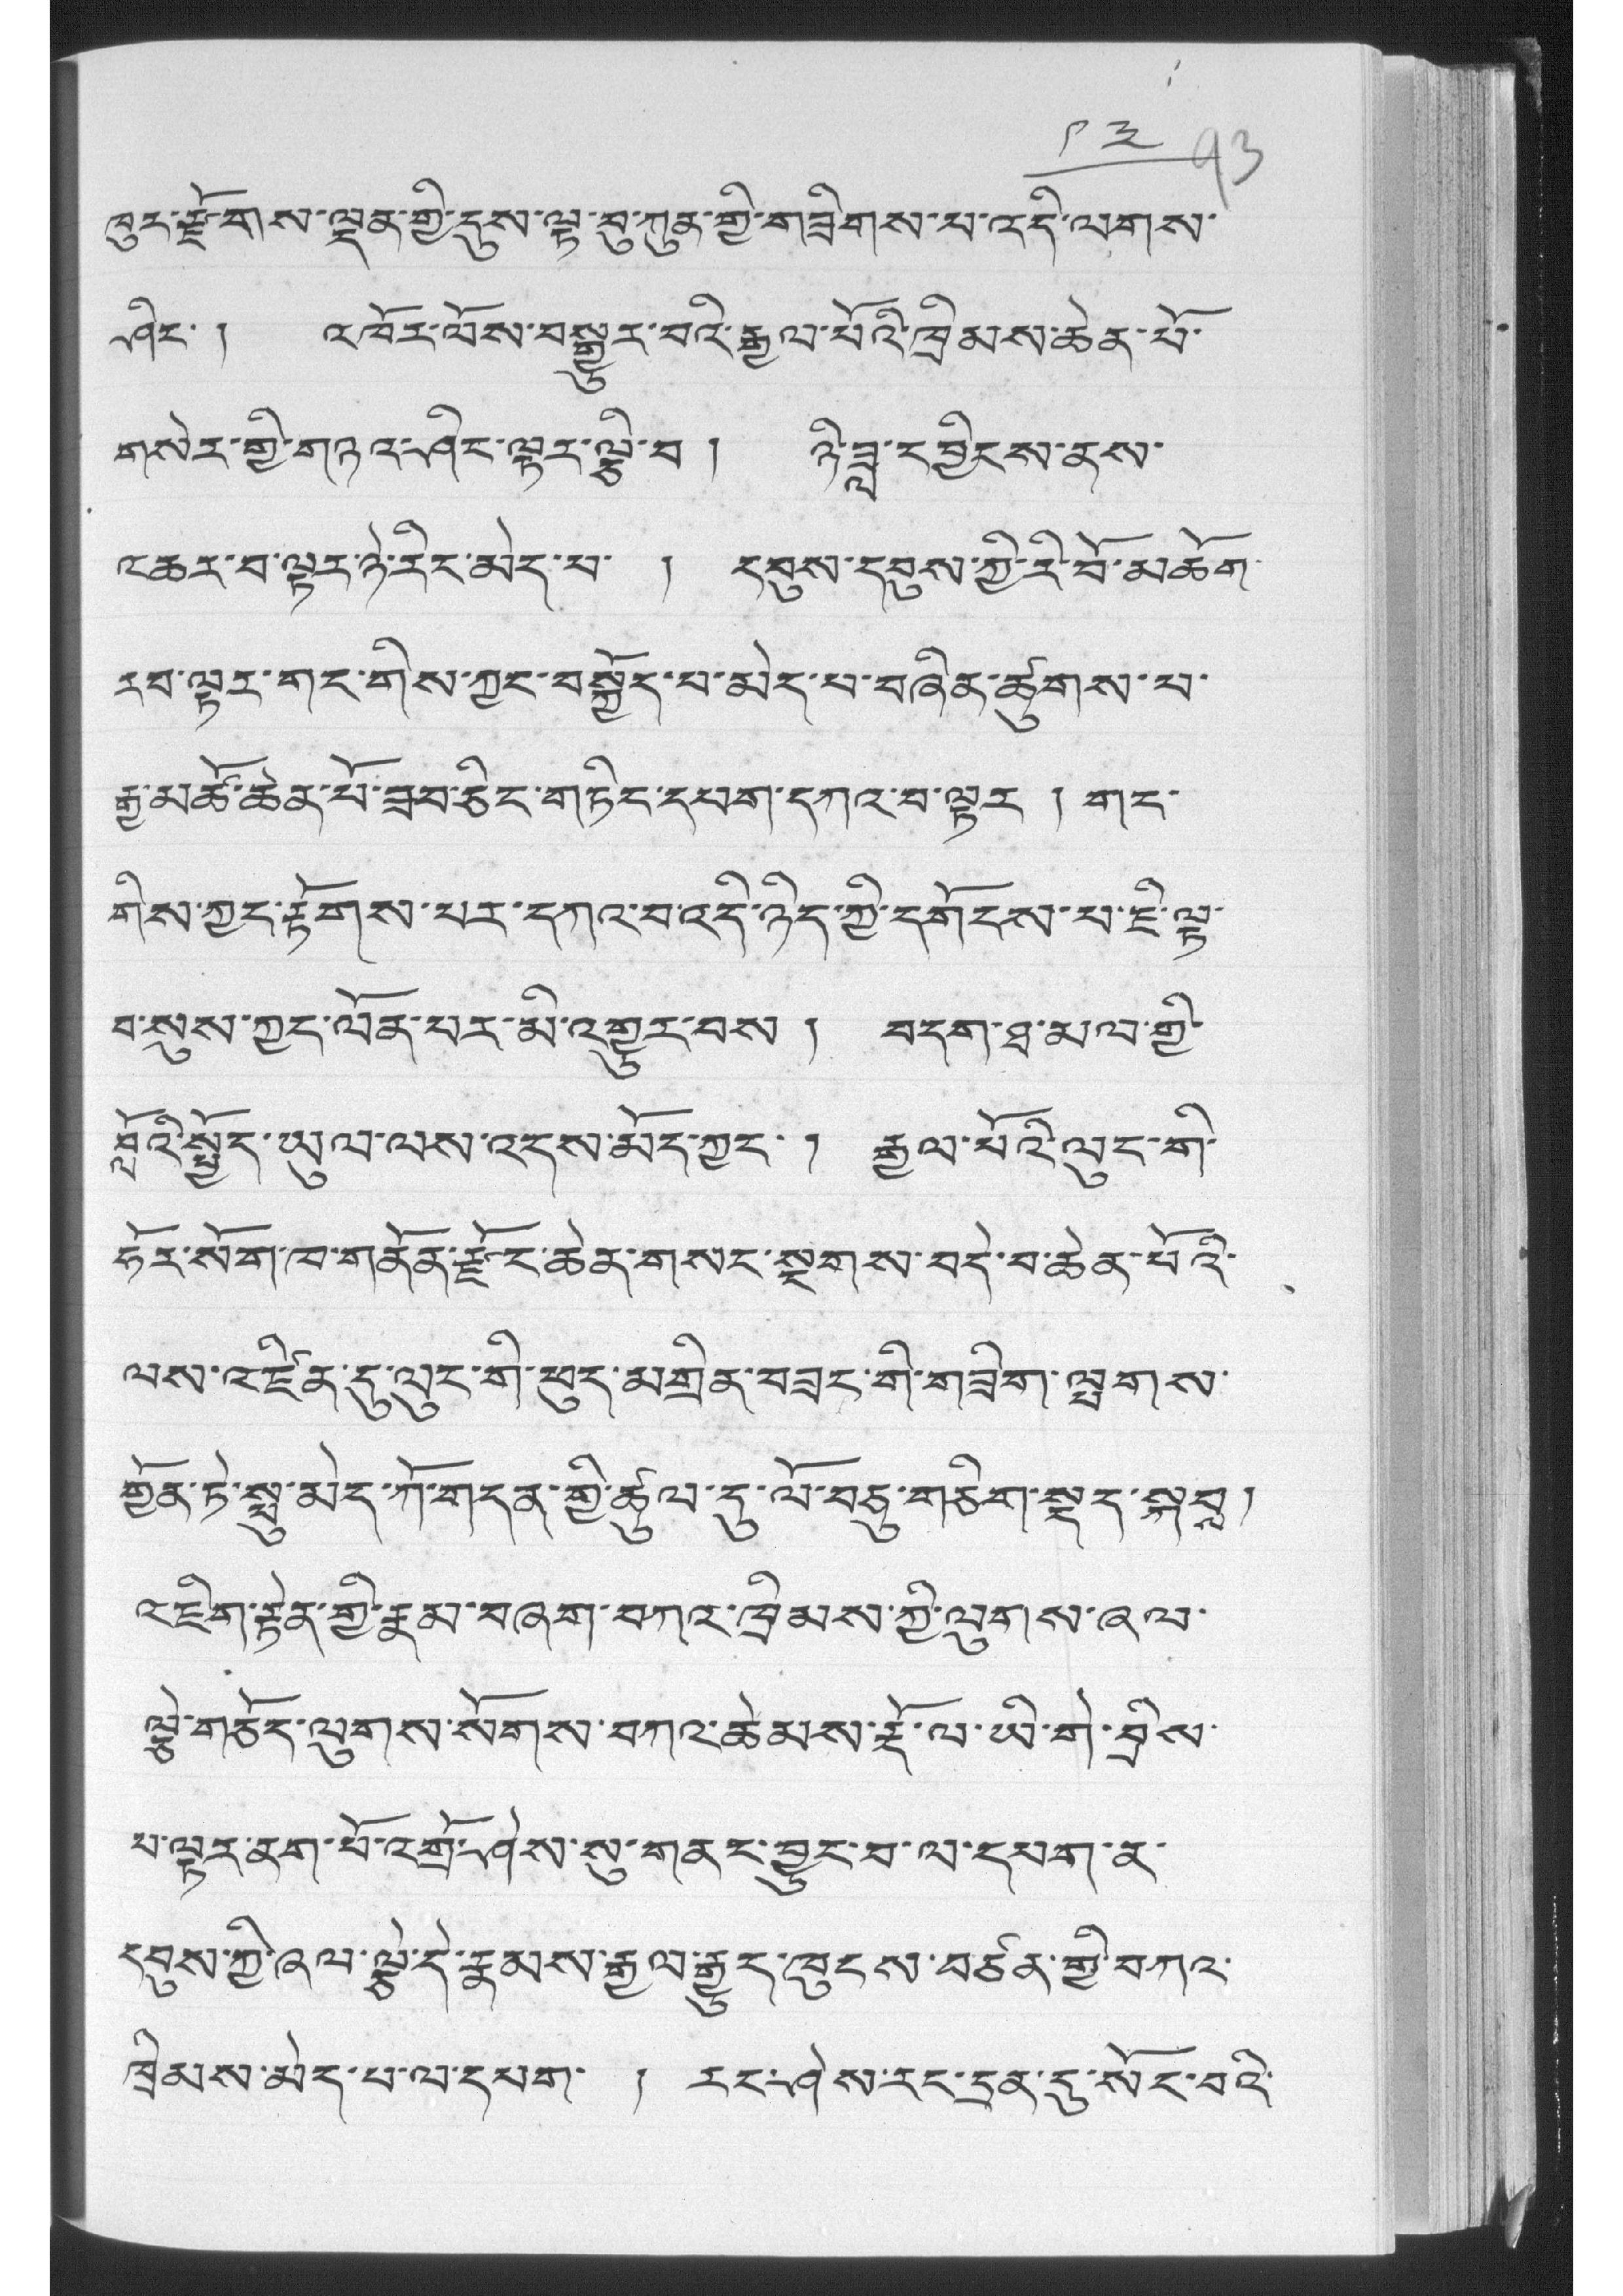༩༣
ཁུར་རྫོགས་ལྡན་གྱི་དུས་ལྟ་བུ་ཀུན་གྱི་གཟིགས་པ་འདི་ལགས་
ཤིང་ ། འཁོར་ལོས་བསྒྱུར་བའི་རྒྱལ་པོའི་ཁྲིམས་ཆེན་པོ་
གསེར་གྱི་གཉའ་ཤིང་ལྟར་ལྕི་བ ། ཉི་ཟླ་དབྱིངས་ནས་
འཆར་བ་ལྟར་ཉེ་རིང་མེད་པ་ ། དབུས་དབུས་ཀྱི་རི་བོ་མཆོག་
རབ་ལྟར་གང་གིས་ཀྱང་བསྐྱོད་པ་མེད་པ་བཞིན་ཚུགས་པ་
རྒྱ་མཚོ་ཆེན་པོ་ཟབ་ཅིང་གཏིང་དཔག་དཀའ་བ་ལྟར་། གང་
གིས་ཀྱང་རྟོགས་པར་དཀའ་བ་འདི་ཉིད་ཀྱི་དགོངས་པ་ཇི་ལྟ་
བ་སུས་ཀྱང་ལོན་པར་མི་འགྱུར་བས ། བདག་ཐ་མལ་གྱི་
བློའི་སྤྱོད་ཡུལ་ལས་འདས་མོད་ཀྱང་ ། རྒྱལ་པོའི་ལུང་ག་
ཧོར་སོག་ཁ་གནོན་རྫོང་ཆེན་གསར་སྔགས་བདེ་བ་ཆེན་པོའི་
ལས་འཛིན་དུ་ལུང་གི་ཕུད་མགྲིན་བཟང་གི་གཟིག་ལྤགས་
གྱོན་ཏེ་སྤུ་མེད་ཀོ་གདན་གྱི་ཚུལ་དུ་ལོ་བཅུ་གཅིག་སྡད་སྐབས།
འཇིག་རྟེན་གྱི་རྣམ་བཞག་བཀའ་ཁྲིམས་ཀྱི་འུགས་ཞལ་
ལྕེ་གཅོད་ལུགས་སོགས་བཀའ་ཆེམས་རྡོ་ལ་ཡི་གེ་བྲིས་
པ་ལྟར་ནག་པོ་འགྲོ་ཤེས་སུ་གནང་བྱུང་བ་ལ་དམག་ན་
དབུས་ཀྱི་ཞལ་ལྕེ་དེ་རྣམས་རྒྱལ་རྒྱུད་ཁུངས་བཙན་གྱི་བཀའ་
ཁྲིམས་མེད་པ་ལ་དམག་ ། རང་ཤེས་རང་དྲན་དུ་སོང་བའི་
